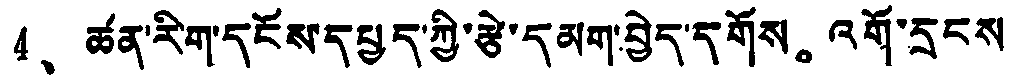4、 ཚན་རིག་དངོས་དཔྱད་ཀྱི་རྩེ་དམག་བྱེད་དགོས。 འགོ་དྲངས
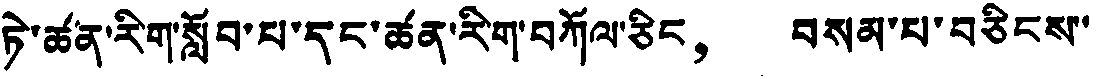ཏེ་ཚན་རིག་སློབ་པ་དང་ཚན་རིག་བཀོལ་ཅིང， བསམ་པ་བཅིངས་་
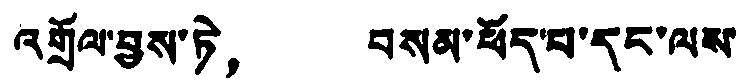འགྲོལ་བྱས་ཏེ， བསམ་ཕོད་པ་དང་ལས་
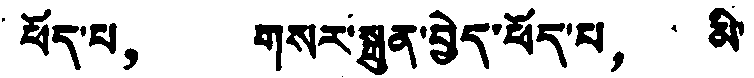ཕོད་པ， གསར་སྐྲུན་བྱེད་ཕོད་པ， མི་
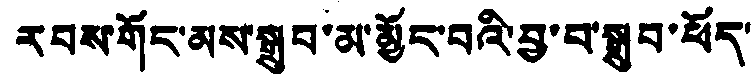རབས་གོང་མས་སྒྲུབ་མ་མྱོང་བའི་བྱ་བ་སྒྲུབ་ཕོད་
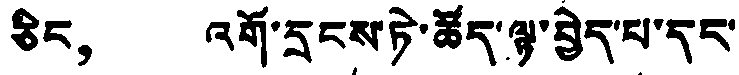ཅིང， འགོ་དྲངས་ཏེ་ཚོད་ལྟ་བྱེད་པ་དང་
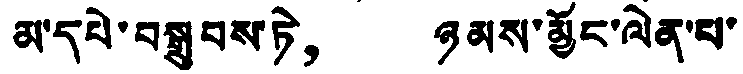མ་དཔེ་བསྒྲུབས་ཏེ， ཉམས་མྱོང་ལེན་པ་
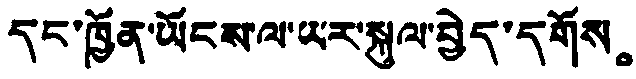དང་ཁྱོན་ཡོངས་ལ་ཡར་སྐུལ་བྱེད་དགོས。
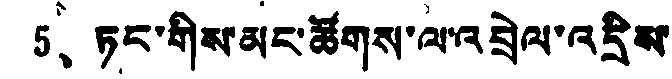5、 ཏང་གིས་མང་ཚོགས་ལ་འབྲེལ་འདྲིས་
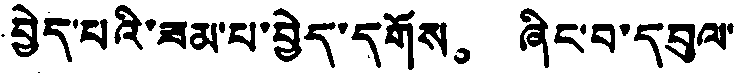བྱེད་པའི་ཟམ་པ་བྱེད་དགོས。 ཞིང་བ་དབུལ་
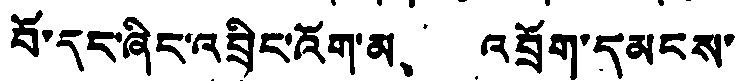པོ་དང་ཞིང་འབྲིང་འོག་མ、 འབྲོག་དམངས་
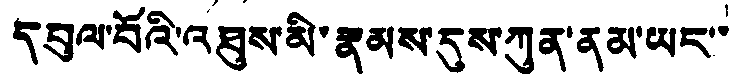དབུལ་བོའི་འཐུས་མི་རྣམས་དུས་ཀུན་ནམ་ཡང་་
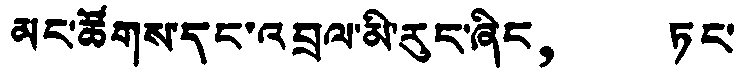མང་ཚོགས་དང་འབྲལ་མི་རུང་ཞིང， ཏང་
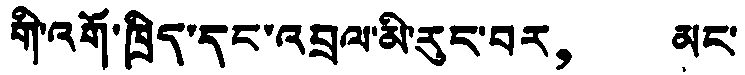གི་འགོ་ཁྲིད་དང་འབྲལ་མི་རུང་བར， མང་
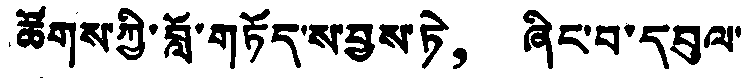ཚོགས་ཀྱི་བློ་གཏོད་ས་བྱས་ཏེ， ཞིང་བ་དབུལ་
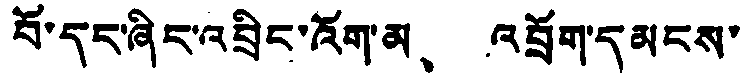བོ་དང་ཞིང་འབྲིང་འོག་མ、 འབྲོག་དམངས་
